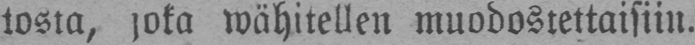tosta, joka wähitellen muodostettaisiin.
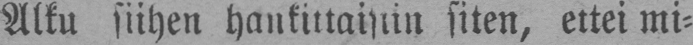Alku siihen hankittaisiin siten, ettei mi-
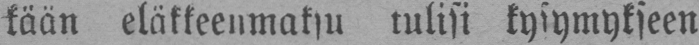kään eläkkeenmaksu tulisi kysymykseen
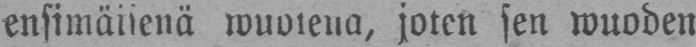ensimäisenä wuotena, joten sen wuoden
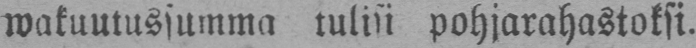wakuutussumma tulisi pohjarahastoksi.
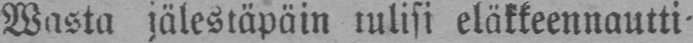Wasta jälestäpäin tulisi eläkkeennautti-
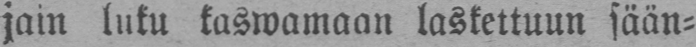jain luku kaswamaan laskettuun sään-
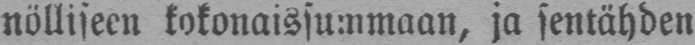nölliseen kokonaissummaan, ja sentähden
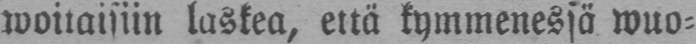woitaisiin laskea, että kymmenessä wuo-
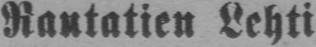Rautatien Lehti.
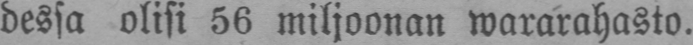dessa olisi 56 miljoonan wararahasto.
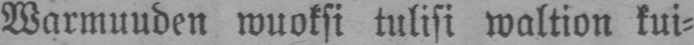Warmuuden wuoksi tulisi waltion kui-
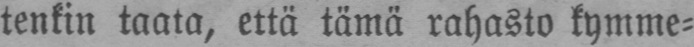tenkin taata, että tämä rahasto kymme-
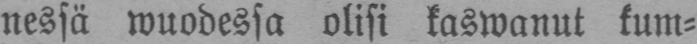nessä wuodessa olisi kaswanut kum-
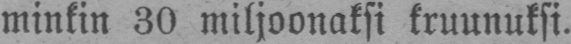minkin 30 miljoonaksi kruunuksi.
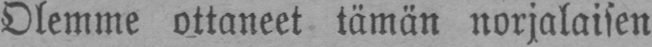Olemme ottaneet tämän norjalaisen
